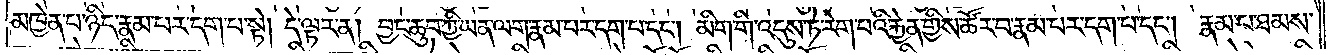མཁྱེན་པ་ཉིད་རྣམ་པར་དག་པ་སྟེ། དེ་ལྟར་ན། བྱང་ཆུབ་ཀྱི་ཡན་ལག་རྣམ་པར་དག་པ་དང༌། མིག་གི་འདུས་ཏེ་རེག་པའི་རྐྱེན་གྱིས་ཚོར་བ་རྣམ་པར་དག་པ་དང༌། རྣམ་པ་ཐམས་
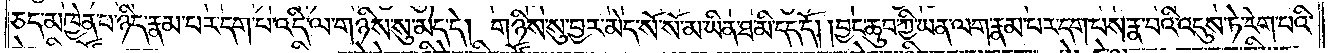ཅད་མཁྱེན་པ་ཉིད་རྣམ་པར་དག་པ་འདི་ལ་གཉིས་སུ་མེད་དེ། གཉིས་སུ་བྱར་མེད་སོ་སོ་མ་ཡིན་ཐ་མི་དད་དོ། །བྱང་ཆུབ་ཀྱི་ཡན་ལག་རྣམ་པར་དག་པས་རྣ་བའི་འདུས་ཏེ་རེག་པའི་
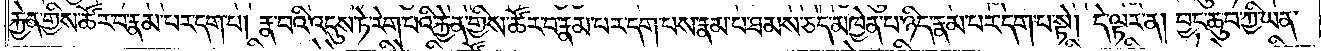རྐྱེན་གྱིས་ཚོར་བ་རྣམ་པར་དག་པ། རྣ་བའི་འདུས་ཏེ་རེག་པའི་རྐྱེན་གྱིས་ཚོར་བ་རྣམ་པར་དག་པས་རྣམ་པ་ཐམས་ཅད་མཁྱེན་པ་ཉིད་རྣམ་པར་དག་པ་སྟེ། དེ་ལྟར་ན། བྱང་ཆུབ་ཀྱི་ཡན་
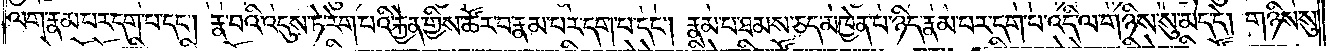ལག་རྣམ་པར་དག་པ་དང༌། རྣ་བའི་འདུས་ཏེ་རེག་པའི་རྐྱེན་གྱིས་ཚོར་བ་རྣམ་པར་དག་པ་དང༌། རྣམ་པ་ཐམས་ཅད་མཁྱེན་པ་ཉིད་རྣམ་པར་དག་པ་འདི་ལ་གཉིས་སུ་མེད་དེ། གཉིས་སུ་
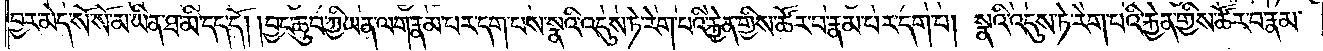བྱར་མེད་སོ་སོ་མ་ཡིན་ཐ་མི་དད་དོ། །བྱང་ཆུབ་ཀྱི་ཡན་ལག་རྣམ་པར་དག་པས་སྣའི་འདུས་ཏེ་རེག་པའི་རྐྱེན་གྱིས་ཚོར་བ་རྣམ་པར་དག་པ། སྣའི་འདུས་ཏེ་རེག་པའི་རྐྱེན་གྱིས་ཚོར་བ་རྣ་
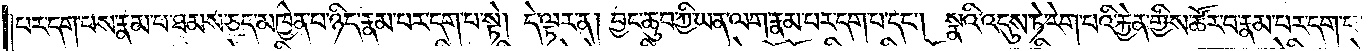པར་དག་པས་རྣམ་པ་ཐམས་ཅད་མཁྱེན་པ་ཉིད་རྣམ་པར་དག་པ་སྟེ། དེ་ལྟར་ན། བྱང་ཆུབ་ཀྱི་ཡན་ལག་རྣམ་པར་དག་པ་དང༌། སྣའི་འདུས་ཏེ་རེག་པའི་རྐྱེན་གྱིས་ཚོར་བ་རྣམ་པར་དག་པ་
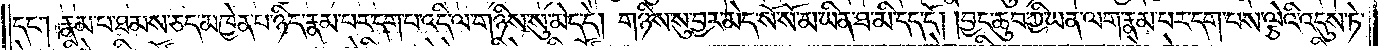དང༌། རྣམ་པ་ཐམས་ཅད་མཁྱེན་པ་ཉིད་རྣམ་པར་དག་པ་འདི་ལ་གཉིས་སུ་མེད་དེ། གཉིས་སུ་བྱར་མེད་སོ་སོ་མ་ཡིན་ཐ་མི་དད་དོ། །བྱང་ཆུབ་ཀྱི་ཡན་ལག་རྣམ་པར་དག་པས་ལྕེའི་འདུས་ཏེ་
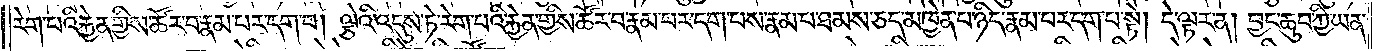རེག་པའི་རྐྱེན་གྱིས་ཚོར་བ་རྣམ་པར་དག་པ། ལྕེའི་འདུས་ཏེ་རེག་པའི་རྐྱེན་གྱིས་ཚོར་བ་རྣམ་པར་དག་པས་རྣམ་པ་ཐམས་ཅད་མཁྱེན་པ་ཉིད་རྣམ་པར་དག་པ་སྟེ། དེ་ལྟར་ན། བྱང་ཆུབ་ཀྱི་ཡན་
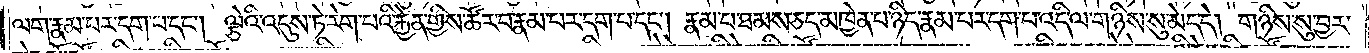ལག་རྣམ་པར་དག་པ་དང༌། ལྕེའི་འདུས་ཏེ་རེག་པའི་རྐྱེན་གྱིས་ཚོར་བ་རྣམ་པར་དག་པ་དང༌། རྣམ་པ་ཐམས་ཅད་མཁྱེན་པ་ཉིད་རྣམ་པར་དག་པ་འདི་ལ་གཉིས་སུ་མེད་དེ། གཉིས་སུ་བྱར་
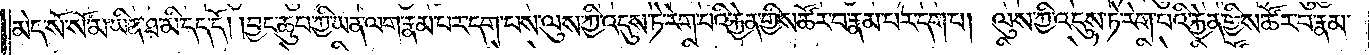མེད་སོ་སོ་མ་ཡིན་ཐ་མི་དད་དོ། །བྱང་ཆུབ་ཀྱི་ཡན་ལག་རྣམ་པར་དག་པས་ལུས་ཀྱི་འདུས་ཏེ་རེག་པའི་རྐྱེན་གྱིས་ཚོར་བ་རྣམ་པར་དག་པ། ལུས་ཀྱི་འདུས་ཏེ་རེག་པའི་རྐྱེན་གྱིས་ཚོར་བ་རྣམ་
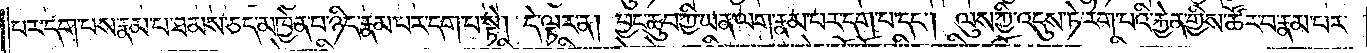པར་དག་པས་རྣམ་པ་ཐམས་ཅད་མཁྱེན་པ་ཉིད་རྣམ་པར་དག་པ་སྟེ། དེ་ལྟར་ན། བྱང་ཆུབ་ཀྱི་ཡན་ལག་རྣམ་པར་དག་པ་དང༌། ལུས་ཀྱི་འདུས་ཏེ་རེག་པའི་རྐྱེན་གྱིས་ཚོར་བ་རྣམ་པར་
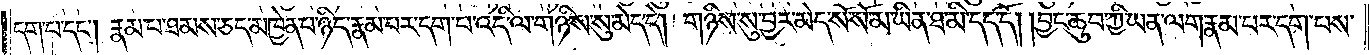དག་པ་དང༌། རྣམ་པ་ཐམས་ཅད་མཁྱེན་པ་ཉིད་རྣམ་པར་དག་པ་འདི་ལ་གཉིས་སུ་མེད་དེ། གཉིས་སུ་བྱར་མེད་སོ་སོ་མ་ཡིན་ཐ་མི་དད་དོ། །བྱང་ཆུབ་ཀྱི་ཡན་ལག་རྣམ་པར་དག་པས་
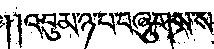། །འབུམ་ཉ་པ་བཞུགས་སོ༎
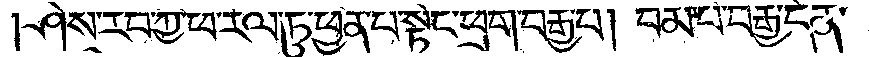ཤེས་རབ་ཀྱི་ཕ་རོལ་ཏུ་ཕྱིན་པ་སྟོང་ཕྲག་བརྒྱ་པ། བམ་པོ་བརྒྱ་དོན་
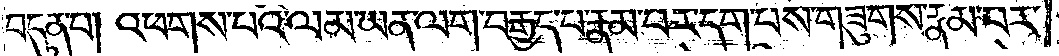བདུན་པ། འཕགས་པའི་ལམ་ཡན་ལག་བརྒྱད་པ་རྣམ་པར་དག་པས་གཟུགས་རྣམ་པར་
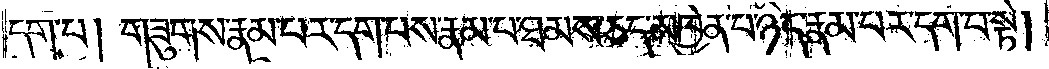དག་པ། གཟུགས་རྣམ་པར་དག་པས་རྣམ་པ་ཐམས་ཅད་མཁྱེན་པ་ཉིད་རྣམ་པར་དག་པ་སྟེ།
